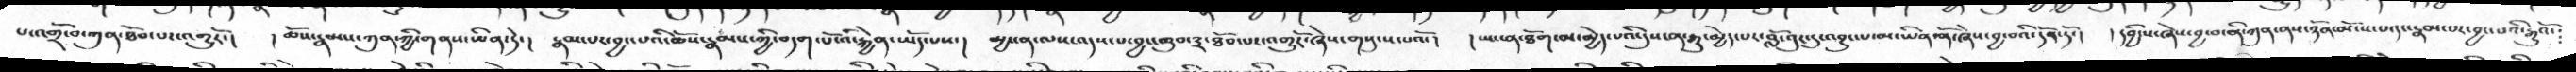པ་འགྲོ་བ་ཀུན་ཐོབ་པར་འགྱུརོ་།  །ཆོས་རྣམས་ཀུན་ཀྱི་གནས་ཡིན་ཏེ་།  རྣམ་པར་བྱང་བའི་ཆོས་རྣམས་ཀྱི་བདག་པོ་འི་རྐྱེན་ཡོད་པས་།  མྱ་ངན་ལས་འདས་པ་བྱང་ཆུབ་༣་ཐོབ་པར་འགྱུརོ་ཞེས་གསུངས་པའོ་།  །ཡང་ན་ཐོག་མ་མྱེད་པའི་དུས་ན་རྒྱུ་མྱེད་པར་བློ་བུར་དུ་འབྱུང་བ་མ་ཡིན་ནོ་ཞེས་བྱ་བའི་དོན་ཏོ་།  །དབྱིངས་ཞེས་བྱ་བ་ནི་ཀུན་ནས་ཉོན་མོངས་པ་དང་རྣམ་པར་བྱང་པའི་རྒྱུའོ་།
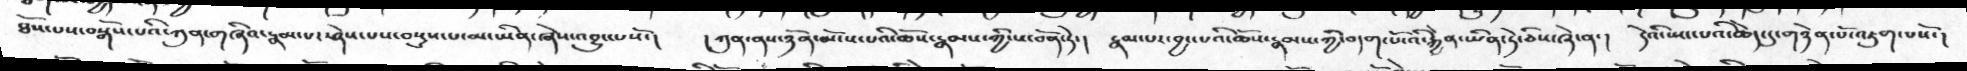ཐོས་པས་བསྒོས་པའི་ཀུན་གཞིའ་རྣམ་པར་ཤེས་པས་བསྡུས་པ་མ་ཡིན་ཞེས་འབྱུང་པསོ་།  །ཀུན་ནས་ཉོན་མོངས་པའི་ཆོས་རྣམས་ཀྱི་ས་བོན་ཏེ་།  རྣམ་པར་བྱང་པའི་ཆོས་རྣམས་ཀྱི་བདག་པོ་འི་རྐྱེན་ཡིན་ཏེ་ཅིས་ཞེ་ན་།  དེའི་ཡང་པའི་ཆེད་དུ་གཉེན་པོ་འཇུག་པསོ་།
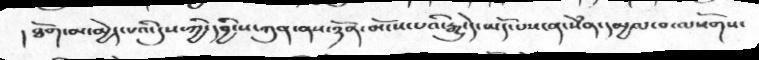། ཐོག་མ་མྱེད་པའི་དུས་ཀྱི་དབྱིངས་ཀུན་ནས་ཉོན་མོངས་པའི་རྒྱུ་དེ་ཡོད་པས་ན་སེཾན་དམྱལ་བ་ལསོགས་
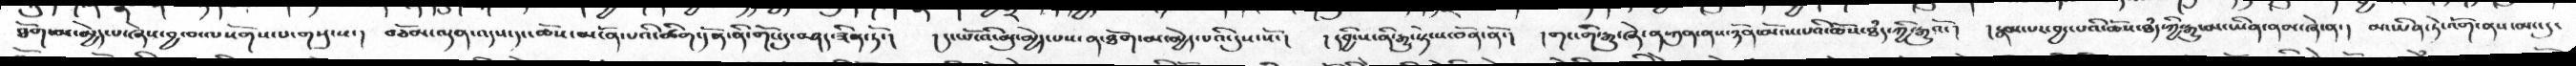ཐོག་མ་མྱེད་པ་ཞེས་བྱ་བ་ལསོགས་པ་གསུངས་།  བཅོམ་ལྡན་འདས་དང་ཆོས་མངོན་པའི་ཚིག་དོན་ནི་གོང་དུ་བཤད་ཟིན་ཏོ་།  །དང་པོ་འི་མུ་མྱེད་པས་ན་ཐོག་མ་མྱེད་པའི་དུས་སོ་།  །དབྱིངས་ནི་རྒྱུ་སྟེ་ས་བོན་ནོ་།  །གང་གི་རྒྱུ་ཞེ་ན་ཀུན་ནས་ཉོན་མོངས་པའི་ཆོས་ཐདཾ་ཀྱི་རྒྱུའོ་།  །རྣམ་པར་བྱང་པའི་ཆོས་ཐདཾ་ཀྱི་རྒྱུ་མ་ཡིན་ནམ་ཞེ་ན་།  མ་ཡིན་ཏེ་འོག་ནས་མང་དུ་
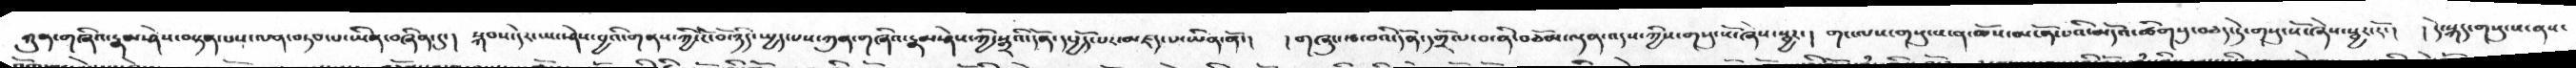ཀུན་གཞིའ་རྣམ་ཤེས་བསྟན་པས་ལན་བཏབ་པ་ཡིན་བཞིན་དུ་།  སྐབས་དེར་ཡང་ཤེས་བྱའི་གནས་ཀྱི་ངོ་བོ་ཉིད་སྤྱད་པས་ཀུན་གཞིའ་རྣམ་ཤེས་ཀྱི་སྒྲའི་དོན་དཔྱོད་པར་མཛད་པ་ཡིན་ནོ་།  ། གཞུང་རྩ་བའི་དོན་དགྲོལ་བ་ནི་བཅོམ་ལྡན་འདས་ཀྱིས་གསུངསོ་ཞེས་སྦྱར་།  གང་ལས་གསུངས་ན་ཆོས་མངོན་པའི་མདོའ་ཚིགསུ་བཅད་ཏེ་གསུངསོ་ཞེས་སྦྱར་རོ་།  །དེ་སྐད་གསུངས་ནས་
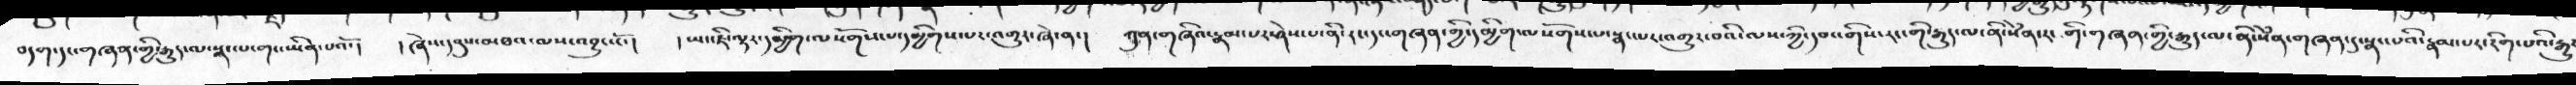བདག་དང་གཞན་གྱི་རྒྱུད་ལ་སྣང་པ་གང་ཡིན་པའོ་།   །ཞེས་དབུས་མཐའ་ལས་འབྱུང་ངོ་།   །ཡང་ཇི་ལྟར་དམྱིག་ལ་སོགས་པ་དམྱིགས་པར་འགྱུར་ཞེ་ན་།  ཀུན་གཞིའ་རྣམ་པར་ཤེས་པ་ནི་རང་དང་གཞན་གྱི་དམྱིག་ལསོགས་པ་སྣང་པར་འགྱུར་བའི་ལས་ཀྱི་དབང་གིས་རང་གི་རྒྱུད་ལ་ནི་སེཾན་རང་གི་གཞན་གྱི་རྒྱུད་ལ་ནི་སེཾན་གཞན་དུ་སྣང་པའི་རྣམ་པར་རིག་པའི་རྒྱུ་
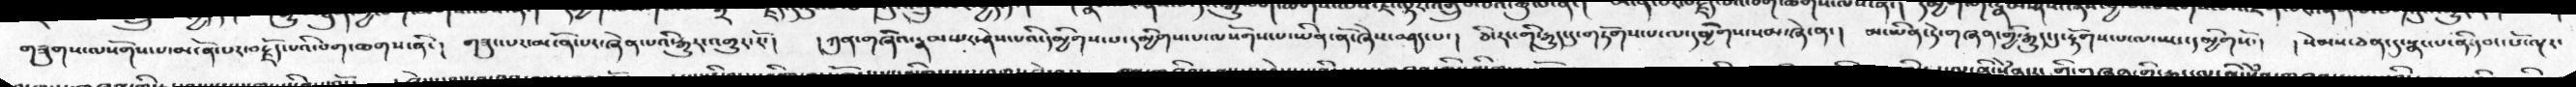གཟུགས་ལསོགས་པ་མངོན་པར་བརྗོད་པའི་བག་ཆགས་ནི་།  གཟུང་པར་མངོན་པར་ཞེན་པའི་རྒྱུར་འགྱུར་རོ་།  །ཀུན་གཞིའ་རྣམ་པར་ཤེས་པའི་དམྱིགས་པ་དམྱིགས་པ་ལསོགས་པ་ཡིན་ནོ་ཞེས་བཤད་པ་།  ཅི་རང་གི་རྒྱུད་དུ་གཏོགས་པ་ལ་དམྱིགས་སམ་ཞེ་ན་།  མ་ཡིན་ཏེ་གཞན་གྱི་རྒྱུད་དུ་རྟོགས་པ་ལ་ཡང་དམྱིགསོ་།  །སེམས་ཅན་དུ་སྣང་པ་ནི་དབང་པ་ལྔར་
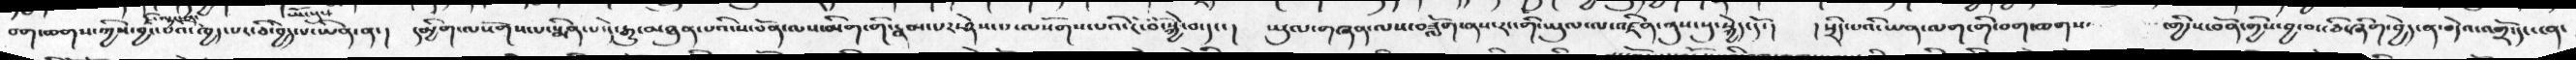བག་ཆགས་ཀྱིས་བྱ་བའི་ཁྱད་པར་ཅི་བྱེད་པ་ཡིན་ན་།  དམྱིག་ལསོགས་པ་སྨིན་པ་དེ་རྒྱུ་མཐུན་པའི་ས་བོན་ལས་མིག་གི་རྣམ་པར་ཤེས་པ་ལསོགས་པའི་ངོ་བོ་སྐྱེ་བ་དང་།  ཡུལ་གཞན་ལས་བཟློག་ནས་རང་གི་ཡུལ་ལ་འཛིན་ནུས་སུ་སྐྱེད་དོ་།   །སྲིད་པའི་ཡན་ལག་གི་བག་ཆགས་     གྱི་ས་བོན་གྱིས་བྱ་བ་ཅི་ཞིག་བྱེད་ན་བདེའ་འགྲོ་དང་ངན་
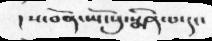། ས་བོན་ཡོངསུ་སྨིན་པ་དང་
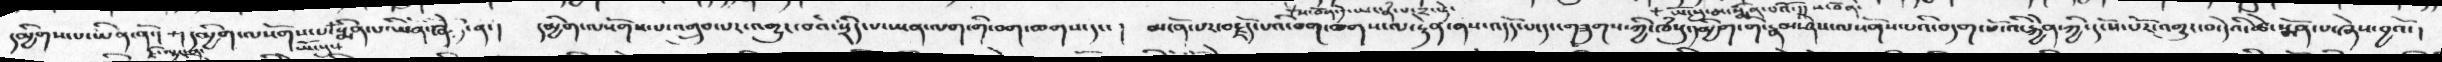དམྱིགས་པ་ཡིན་ནོ།  ཇི་ལྟར་ན་ དམྱིག་ལསོགས་པ་ཡོང་སུ་སྨིན་པ་ཡིན་ཞེ་ན་།  དམྱིག་ལསོགས་པ་འགྲུབ་པར་འགྱུར་བའི་སྲིད་པ་ཡན་ལག་གི་བག་ཆགས་དང་།  མངོན་པར་བརྗོད་པའི་བག་ཆགས་ལ་རྟེན་ནས་འདོད་པ་དང་གཟུགས་ཀྱི་ཁཾསུ་དམྱིག་གི་རྣམ་ཤེས་ལསོགས་པའི་བདག་པོ་འི་རྐྱེན་ཀྱི་དངོས་པོར་འགྱུར་བ་དེའི་ཚེ་སྨོན་པ་ཞེས་བྱའོ་།
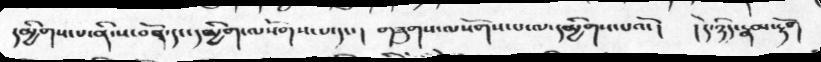དམྱིགས་པ་ནི་ས་བོན་དང་དམྱིགས་ལསོགས་པ་དང་།  གཟུགས་ལསོགས་པ་ལ་དམྱིགས་པའོ་།  །དེ་ཉིད་རྣམ་རྟོག
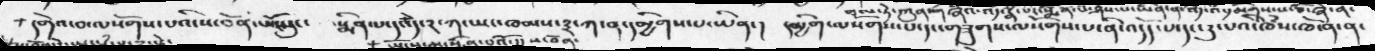དགེའ་བ་ལསོགས་པའི་ས་བོན་ཡོངསུ་་  སྨིན་པ་དང་དེ་༢་ཀ་ཡང་ཁམས་༣་ཀ་ན་དམྱིགས་པ་ཡིན་།   དམྱིག་ལསོགས་པ་དང་གཟུགས་ལསོགས་པ་ནི་འདོད་པ་དང་རུ་པའི་ཁཾས་ཁོ་ན་ན་
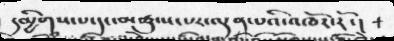དམྱིགས་པ་དང་མཚུངས་པར་ལྡན་པའི་འཁོར་རོ་།
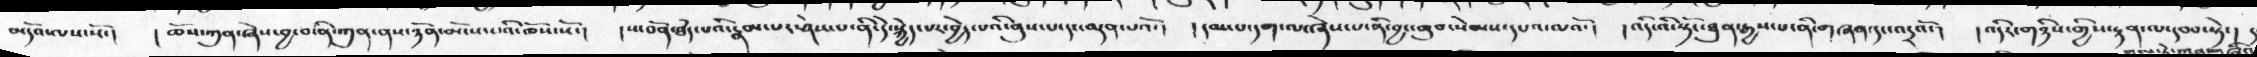མདོའ་ལས་སོ་།   །ཆོས་ཀུན་ཞེས་བྱ་བ་ནི་ཀུན་ནས་ཉོན་མོངས་པའི་ཆོས་སོ་།  །ས་བོན་ཐཾད་པའི་རྣམ་པར་ཤེས་པ་ནི་དེ་སྐྱེད་པར་བྱེད་པའི་ནུས་པ་ད་ལྡན་པའོ།   །དམ་པ་དག་ལ་ཞེས་པ་ནི་བྱང་ཆུབ་སེམས་དཔའ་ལའོ་།   །འདི་འི་སྟོང་ཐུན་རྒྱས་པ་ནི་གཞན་དུ་འདྲའོ་།  འདིར་གཉིས་གྱིས་རྟན་ལ་དབབ་སྟེ་།  །
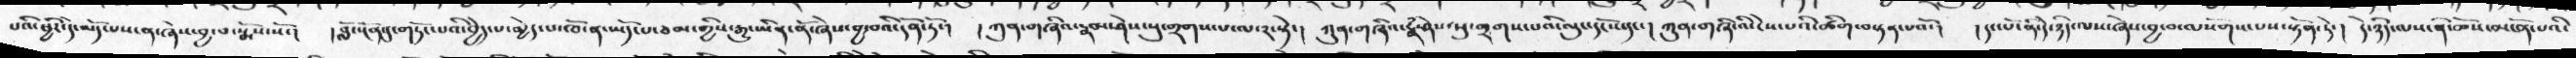པའི་ཕྱིར་དེ་འདོད་པས་ན་ཞེས་བྱ་བ་སྨོས་སོ་།  །བློ་སྔོན་དུ་གཏོང་པའི་བྱེད་པ་མྱེད་པ་ཁོ་ན་ཡོད་པ་ཙམ་གྱིས་རྒྱུ་ཡིན་ནོ་ཞེས་བྱ་བའི་དོན་ཏོ་།  །ཀུན་གཞིའ་རྣམ་ཤེས་སུ་གྲགས་པ་ལ་༢་སྟེ་།  ཀུན་གཞིའ་རྣམ་ཤེས་སུ་གྲགས་པའི་ལུང་དངོས་དང་།  ཀུན་གཞི་འི་ངེས་པའི་ཚིག་བསྟན་པའོ་།  །དང་པོ་ནི་དེ་ཉིད་ལས་ཞེས་བྱ་བ་ལསོགས་པས་སྟོན་ཏེ་།  དེ་ཉིད་ལས་ནི་ཆོས་མངོན་པའི་
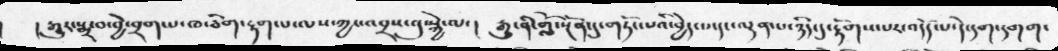། རྒྱུར་སྨྲ་བ་བྱེ་བྲག་པ་ཁ་ཅིག་རྟག་པ་ལས་ཀྱང་འབྲས་བུ་སྐྱེ་ལ་།  རྒྱུ་ནི་གློ་སྔོན་དུ་གཏོང་པའི་བྱེད་པ་དང་ལྡན་པ་ཉིད་དུ་རྟོགས་པར་འདོད་པ་དེ་དག་དགག་
